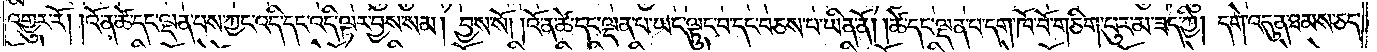འགྱུར་རོ། །འོ་ན་ཚེ་དང་ལྡན་པས་ཀྱང་འདི་དང་འདི་ལྟར་བྱས་སམ། བྱས་སོ། །འོ་ན་ཚེ་དང་ལྡན་པ་ཡང་ལྟུང་བ་དང་བཅས་པ་ཡིན་ནོ། །ཚེ་དང་ལྡན་པ་དག་ཁོ་བོ་གཅིག་བུར་མ་ཟད་ཀྱི། དགེ་འདུན་ཐམས་ཅད་
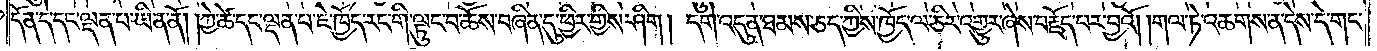དོན་དེ་དང་ལྡན་པ་ཡིན་ནོ། །ཀྱེ་ཚེ་དང་ལྡན་པ་ཇེ་ཁྱོད་རང་གི་ལྟུང་བ་ཆོས་བཞིན་དུ་ཕྱིར་གྱིས་ཤིག། དགེ་འདུན་ཐམས་ཅད་ཀྱིས་ཁྱོད་ལ་ཅིར་འགྱུར་ཞེས་བརྗོད་པར་བྱའོ། །གལ་ཏེ་འཆགས་ན་དེས་དེ་གང་
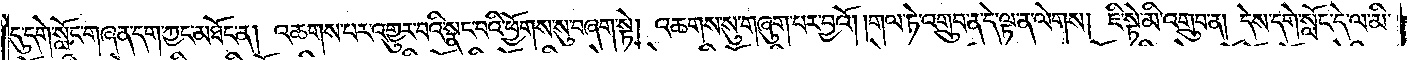དུ་དགེ་སློང་གཞན་དག་ཀྱང་མཐོང་ན། འཆགས་པར་འགྱུར་བའི་སྣང་བའི་ཕྱོགས་སུ་བཞག་སྟེ། འཆགས་སུ་གཞུག་པར་བྱའོ། །གལ་ཏེ་འགྲུབ་ན་དེ་ལྟ་ན་ལེགས། ཇི་སྟེ་མི་འགྲུབ་ན། དེས་དགེ་སློང་དེ་ལ་མི་
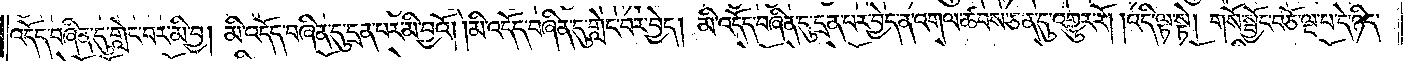འདོད་བཞིན་དུ་གླེང་བར་མི་བྱ། མི་འདོད་བཞིན་དུ་དྲན་པར་མི་བྱའོ། །མི་འདོད་བཞིན་དུ་གླེང་བར་བྱེད། མི་འདོད་བཞིན་དུ་དྲན་པར་བྱེད་ན་འགལ་ཚབས་ཅན་དུ་འགྱུར་རོ། །འདི་ལྟ་སྟེ། གསོ་སྦྱོང་བཅོ་ལྔ་པ་དེ་ཉིད་
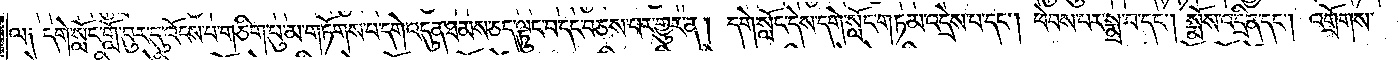ལ༑ དགེ་སློང་གློ་བུར་དུ་འོངས་པ་གཅིག་པུ་མ་གཏོགས་པ་དགེ་འདུན་ཐམས་ཅད་ལྟུང་བ་དང་བཅས་པར་གྱུར་ན། དགེ་སློང་དེས་དགེ་སློང་གཏམ་འདྲེས་པ་དང༌། ཕེབས་པར་སྨྲ་བ་དང༌། སྨོས་འདྲིན་དང༌། འགྲོགས་
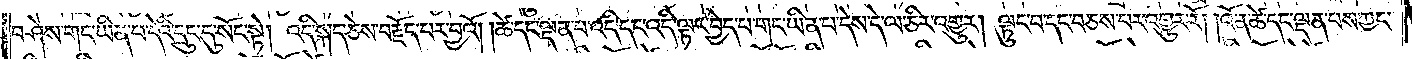བཤེས་གང་ཡིན་པ་དེའི་དྲུང་དུ་སོང་སྟེ། འདི་སྐད་ཅེས་བརྗོད་པར་བྱའོ། །ཚེ་དང་ལྡན་པ་འདི་དང་འདི་ལྟར་བྱེད་པ་གང་ཡིན་པ་དེས་དེ་ལ་ཅིར་འགྱུར། ལྟུང་བ་དང་བཅས་པར་འགྱུར་རོ། །འོན་ཚེ་དང་ལྡན་པས་ཀྱང་
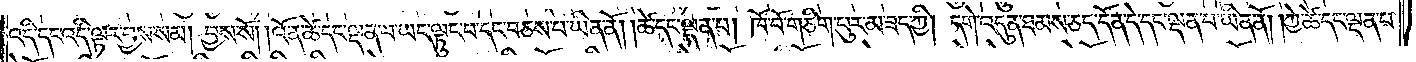འདི་དང་འདི་ལྟར་བྱས་སམ། བྱས་སོ། །འོ་ན་ཚེ་དང་ལྡན་པ་ཡང་ལྟུང་བ་དང་བཅས་པ་ཡིན་ནོ། །ཚེ་དང་ལྡན་པ། ཁོ་བོ་གཅིག་པུར་མ་ཟད་ཀྱི། དགེ་འདུན་ཐམས་ཅད་དོན་དེ་དང་ལྡན་པ་ཡིན་ནོ། །ཀྱེ་ཚེ་དང་ལྡན་པ་
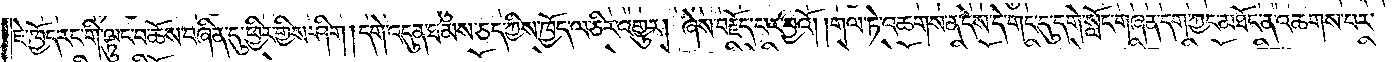ཇེ་ཁྱོད་རང་གི་ལྟུང་བ་ཆོས་བཞིན་དུ་ཕྱིར་གྱིས་ཤིག །དགེ་འདུན་ཐམས་ཅད་ཀྱིས་ཁྱོད་ལ་ཅིར་འགྱུར། ཞེས་བརྗོད་བར་བྱའོ། །གལ་ཏེ་འཆགས་ན་དེས་དེ་གང་དུ་དགེ་སློང་གཞན་དག་ཀྱང་མཐོང་ན་འཆགས་པར་
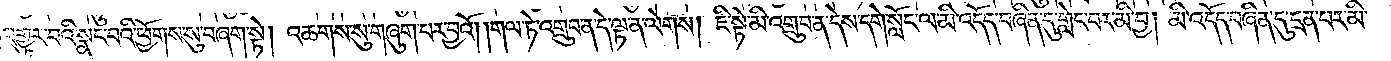འགྱུར་བའི་སྣང་བའི་ཕྱོགས་སུ་བཞག་སྟེ། འཆགས་སུ་གཞུག་པར་བྱའོ། །གལ་ཏེ་འགྲུབ་ན་དེ་ལྟ་ན་ལེགས། ཇི་སྟེ་མི་འགྲུབ་ན་དེས་དགེ་སློང་ལ་མི་འདོད་བཞིན་དུ་གླེང་བར་མི་བྱ། མི་འདོད་བཞིན་དུ་དྲན་པར་མི་
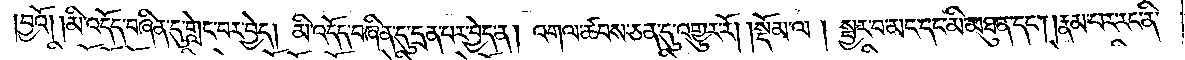བྱའོ། །མི་འདོད་བཞིན་དུ་གླེང་པར་བྱེད། མི་འདོད་བཞིན་དུ་དྲན་པར་བྱེད་ན། འགལ་ཚབས་ཅན་དུ་འགྱུར་རོ།    །སྡོམ་ལ། སྦྱར་བ་མང་དང་མི་མཐུན་དང༌། །རྣམ་པར་རང་ནི་
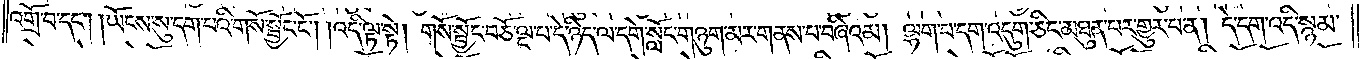འགྲོ་བ་དང༌། །ཡོངས་སུ་དག་པའི་གསོ་སྦྱོང་ངོ༌། །འདི་ལྟ་སྟེ། གསོ་སྦྱོང་བཅོ་ལྔ་པ་དེ་ཉིད་ལ་དགེ་སློང་གཉུག་མར་གནས་པ་བཞིའམ། ལྷག་པ་དག་འདུག་ཅིང་མཐུན་པར་གྱུར་པ་ན། དེ་དག་འདི་སྙམ་
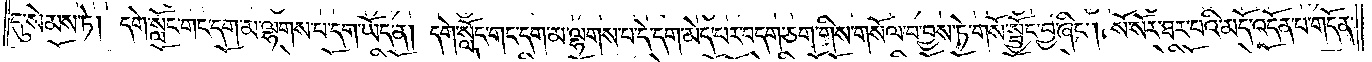དུ་སེམས་ཏེ། དགེ་སློང་གང་དག་མ་ལྷགས་པ་དག་ཡོད་ན། དགེ་སློང་གང་དག་མ་ལྷགས་པ་དེ་དག་མེད་པར་བདག་ཅག་གིས་གསོལ་བ་བྱས་ཏེ་གསོ་སྦྱོང་བྱ་ཞིང༌། སོ་སོར་ཐར་པའི་མདོ་འདོན་པ་གདོན་
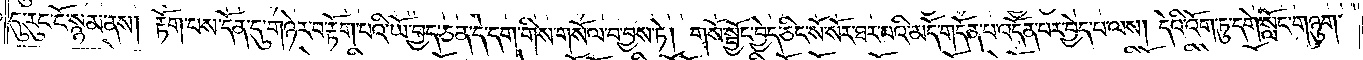དུ་རུང་ངོ་སྙམ་ནས། རྟོག་པས་དོན་དུ་གཉེར་བ་རྟོག་པའི་ཡོ་བྱད་ཅན་དེ་དག་གིས་གསོལ་བ་བྱས་ཏེ། གསོ་སྦྱོང་བྱེད་ཅིང་སོ་སོར་ཐར་པའི་མདོ་གདོན་པ་འདོན་པར་བྱེད་པ་ལས། དེའི་འོག་ཏུ་དགེ་སློང་གཉུག་
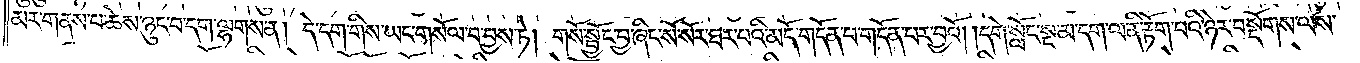མར་གནས་པ་ཆེས་ཉུང་བ་དག་ལྷགས་ན། དེ་དག་གིས་ཡང་གསོལ་བ་བྱས་ཏེ། གསོ་སྦྱོང་བྱ་ཞིང་སོ་སོར་ཐར་པའི་མདོ་གདོན་པ་གདོན་པར་བྱའོ། །དགེ་སློང་སྔ་མ་དག་ལ་ནི་རྟོག་པའི་ཉེར་བསྡོགས་ལས་
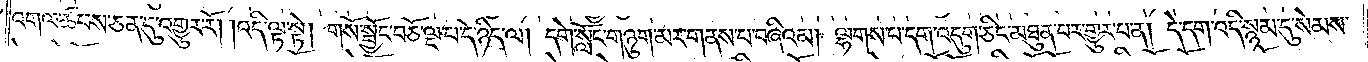འགལ་ཚབས་ཅན་དུ་འགྱུར་རོ། །འདི་ལྟ་སྟེ། གསོ་སྦྱོང་བཅོ་ལྔ་པ་དེ་ཉིད་ལ། དགེ་སློང་གཉུག་མར་གནས་པ་བཞིའམ། ལྷགས་པ་དག་འདུག་ཅིང་མཐུན་པར་གྱུར་པ་ན། དེ་དག་འདི་སྙམ་དུ་སེམས་
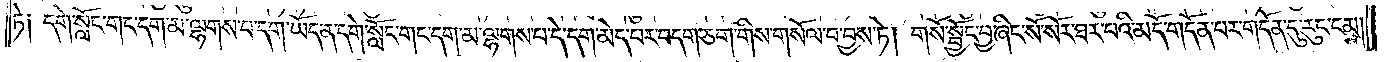ཏེ༑ དགེ་སློང་གང་དག་མ་ལྷགས་པ་དག་ཡོད་ན་དགེ་སློང་གང་དག་མ་ལྷགས་པ་དེ་དག་མེད་པར་བདག་ཅག་གིས་གསོལ་བ་བྱས་ཏེ། གསོ་སྦྱོང་བྱ་ཞིང་སོ་སོར་ཐར་པའི་མདོ་གདོན་པར་གདོན་དུ་རུང་ངམ།
